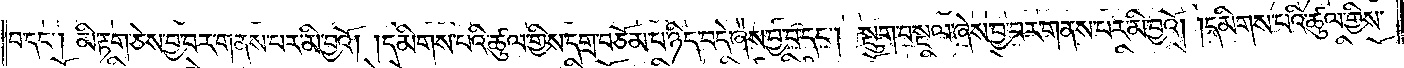བ་དང༌། མི་རྟག་ཅེས་བྱ་བར་གནས་པར་མི་བྱའོ། །དམིགས་པའི་ཚུལ་གྱིས་དགྲ་བཅོམ་པ་ཉིད་བདེ་ཞེས་བྱ་བ་དང༌། སྡུག་བསྔལ་ཞེས་བྱ་བར་གནས་པར་མི་བྱའོ། །དམིགས་པའི་ཚུལ་གྱིས་
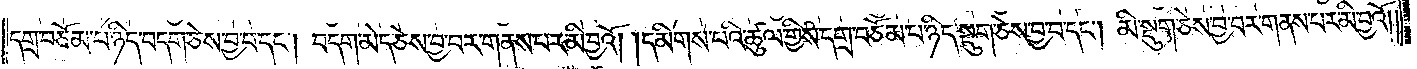དགྲ་བཅོམ་པ་ཉིད་བདག་ཅེས་བྱ་བ་དང༌། བདག་མེད་ཅེས་བྱ་བར་གནས་པར་མི་བྱའོ། །དམིགས་པའི་ཚུལ་གྱིས་དགྲ་བཅོམ་པ་ཉིད་སྡུག་ཅེས་བྱ་བ་དང༌། མི་སྡུག་བསྔལ་བྱ་བར་གནས་པར་མི་བྱའོ།
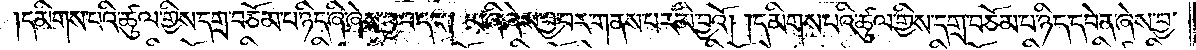དམིགས་པའི་ཚུལ་གྱིས་དགྲ་བཅོམ་པ་ཉིད་ཞི་ཞེས་བྱ་བ་དང༌། མ་ཞི་ཞེས་བྱ་བར་གནས་པར་མི་བྱའོ། །དམིགས་པའི་ཚུལ་གྱིས་དགྲ་བཅོམ་པ་ཉིད་དབེན་ཞེས་བྱ་
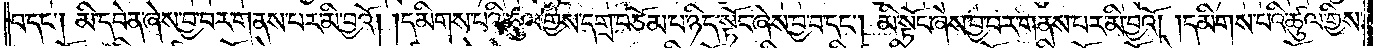བ་དང༌། མི་དབེན་ཞེས་བྱ་བར་གནས་པར་མི་བྱའོ། །དམིགས་པའི་ཚུལ་གྱིས་དགྲ་བཅོམ་པ་ཉིད་སྟོང་ཞེས་བྱ་བ་དང༌། མི་སྟོང་ཞེས་བྱ་བར་གནས་པར་མི་བྱའོ། །དམིགས་པའི་ཚུལ་གྱིས་
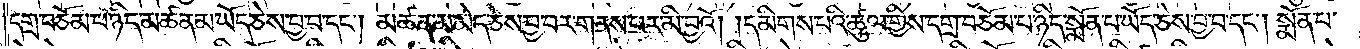དགྲ་བཅོམ་པ་ཉིད་མཚན་མ་ཡོད་ཅེས་བྱ་བ་དང༌། མཚན་མ་མེད་ཅེས་བྱ་བར་གནས་པར་མི་བྱའོ། །དམིགས་པའི་ཚུལ་གྱིས་དགྲ་བཅོམ་པ་ཉིད་སྨོན་པ་ཡོད་ཅེས་བྱ་བ་དང༌། སྨོན་པ་
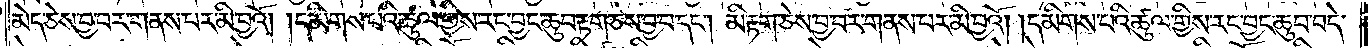མེད་ཅེས་བྱ་བར་གནས་པར་མི་བྱའོ། །དམིགས་པའི་ཚུལ་གྱིས་རང་བྱང་ཆུབ་རྟག་ཅེས་བྱ་བ་དང༌། མི་རྟག་ཅེས་བྱ་བར་གནས་པར་མི་བྱའོ། །དམིགས་པའི་ཚུལ་གྱིས་རང་བྱང་ཆུབ་བདེ་
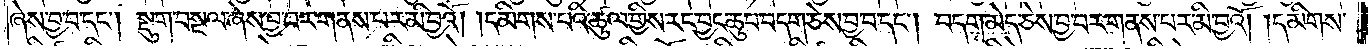ཞེས་བྱ་བ་དང༌། སྡུག་བསྔལ་ཞེས་བྱ་བར་གནས་པར་མི་བྱའོ། ། དམིགས་པའི་ཚུལ་གྱིས་རང་བྱང་ཆུབ་བདག་ཅེས་བྱ་བ་དང༌། བདག་མེད་ཅེས་བྱ་བར་གནས་པར་མི་བྱའོ། །དམིགས་
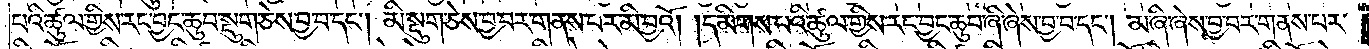པའི་ཚུལ་གྱིས་རང་བྱང་ཆུབ་སྡུག་ཅེས་བྱ་བ་དང༌། མི་སྡུག་ཅེས་བྱ་བར་གནས་པར་མི་བྱའོ། །དམིགས་པའི་ཚུལ་གྱིས་རང་བྱང་ཆུབ་ཞི་ཞེས་བྱ་བ་དང༌། མ་ཞི་ཞེས་བྱ་བར་གནས་པར་
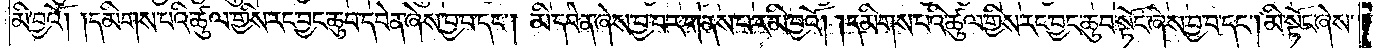མི་བྱའོ། །དམིགས་པའི་ཚུལ་གྱིས་རང་བྱང་ཆུབ་དབེན་ཞེས་བྱ་བ་དང༌། མི་དབེན་ཞེས་བྱ་བར་གནས་པར་མི་བྱའོ། །དམིགས་པའི་ཚུལ་གྱིས་རང་བྱང་ཆུབ་སྟོང་ཞེས་བྱ་བ་དང༌། མི་སྟོང་ཞེས་
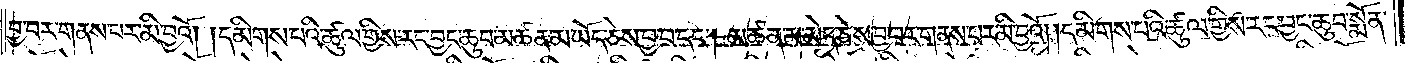བྱ་བར་གནས་པར་མི་བྱའོ། །དམིགས་པའི་ཚུལ་གྱིས་རང་བྱང་ཆུབ་མཚན་མ་ཡོད་ཅེས་བྱ་བ་དང༌། མཚན་མ་མེད་ཅེས་བྱ་བར་གནས་པར་མི་བྱའོ། །དམིགས་པའི་ཚུལ་གྱིས་རང་བྱང་ཆུབ་སྨོན་
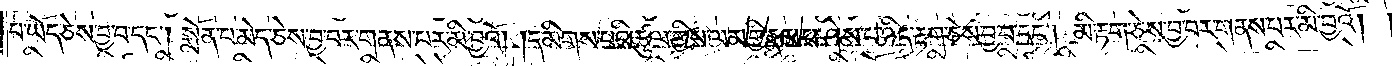པ་ཡོད་ཅེས་བྱ་བ་དང༌། སྨོན་པ་མེད་ཅེས་བྱ་བར་གནས་པར་མི་བྱའོ། །དམིགས་པའི་ཚུལ་གྱིས་ལམ་གྱི་རྣམ་པ་ཤེས་པ་ཉིད་རྟག་ཅེས་བྱ་བ་དང༌། མི་རྟག་ཅེས་བྱ་བར་གནས་པར་མི་བྱའོ། །
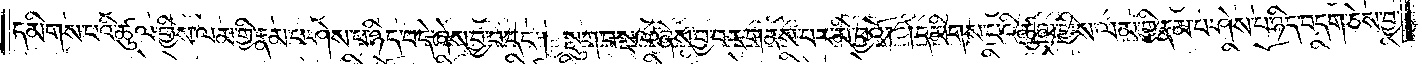དམིགས་པའི་ཚུལ་གྱིས་ལམ་གྱི་རྣམ་པ་ཤེས་པ་ཉིད་བདེ་ཞེས་བྱ་བ་དང༌། སྡུག་བསྔལ་ཞེས་བྱ་བར་གནས་པར་མི་བྱའོ། །དམིགས་པའི་ཚུལ་གྱིས་ལམ་གྱི་རྣམ་པ་ཤེས་པ་ཉིད་བདག་ཅེས་བྱ་
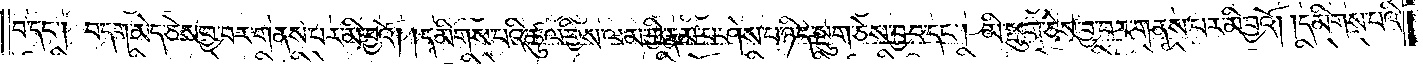བ་དང༌། བདག་མེད་ཅེས་བྱ་བར་གནས་པར་མི་བྱའོ། །དམིགས་པའི་ཚུལ་གྱིས་ལམ་གྱི་རྣམ་པ་ཤེས་པ་ཉིད་སྡུག་ཅེས་བྱ་བ་དང༌། མི་སྡུག་ཅེས་བྱ་བར་གནས་པར་མི་བྱའོ། །དམིགས་པའི་
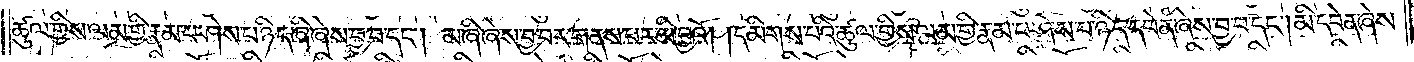ཚུལ་གྱིས་ལམ་གྱི་རྣམ་པ་ཤེས་པ་ཉིད་ཞི་ཞེས་བྱ་བ་དང༌། མ་ཞི་ཞེས་བྱ་བར་གནས་པར་མི་བྱའོ། །དམིགས་པའི་ཚུལ་གྱིས་ལམ་གྱི་རྣམ་པ་ཤེས་པ་ཉིད་དབེན་ཞེས་བྱ་བ་དང༌། མི་དབེན་ཞེས་
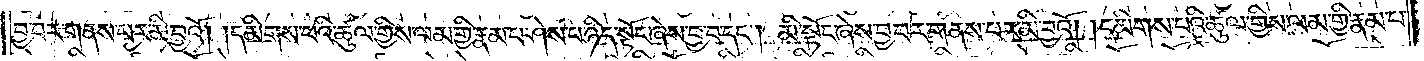བྱ་བར་གནས་པར་མི་བྱའོ། །དམིགས་པའི་ཚུལ་གྱིས་ལམ་གྱི་རྣམ་པ་ཤེས་པ་ཉིད་སྟོང་ཞེས་བྱ་བ་དང༌། མི་སྟོང་ཞེས་བྱ་བར་གནས་པར་མི་བྱའོ། །དམིགས་པའི་ཚུལ་གྱིས་ལམ་གྱི་རྣམ་པ་
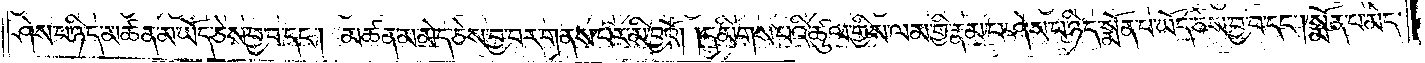ཤེས་པ་ཉིད་མཚན་མ་ཡོད་ཅེས་བྱ་བ་དང༌། མཚན་མ་མེད་ཅེས་བྱ་བར་གནས་པར་མི་བྱའོ། །དམིགས་པའི་ཚུལ་གྱིས་ལམ་གྱི་རྣམ་པ་ཤེས་པ་ཉིད་སྨོན་པ་ཡོད་ཅེས་བྱ་བ་དང༌། སྨོན་པ་མེད་
